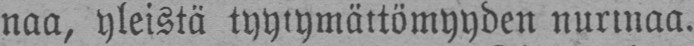naa, yleistä tyytymättömyyden nurinaa.
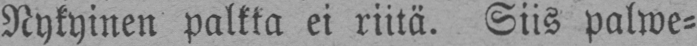Nykyinen palkka ei riitä. Siis palwe-
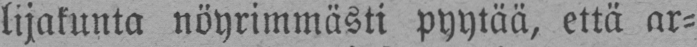lijakunta nöyrimmästi Pyytää, että ar-
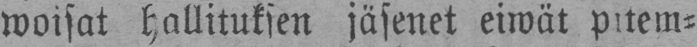woisat hallituksen jäsenet eiwät pitem-
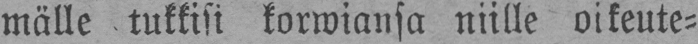mälle tukkisi korwiansa niille oikeute-
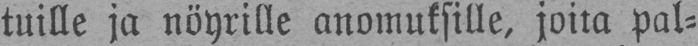tuille ja nöyrille anomuksille, joita pal-
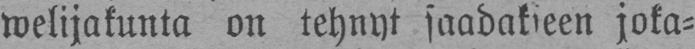welijakunta on tehnyt saadakseen joka-
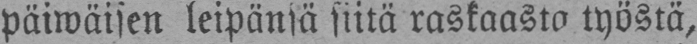päiwäisen leipänsä siitä raskaasta työstä,
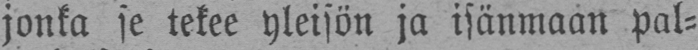jonka se tekee yleisön ja isänmaan pal-
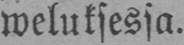weluksessa.
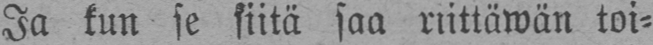Ja kun se siitä saa riittäwän toi-
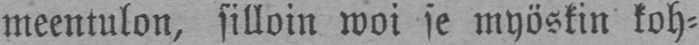meentulon, silloin woi se myöskin koh-
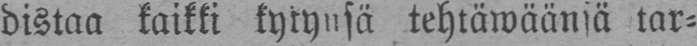distaa kaikki kykynsä tehtäwäänsä tar-
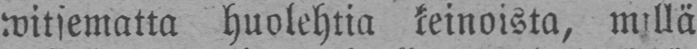witsematta huolehtia keinoista, millä
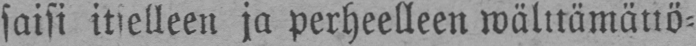saisi itselleen ja perheelleen wälttämättö-
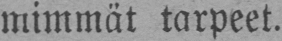mimmät tarpeet.
